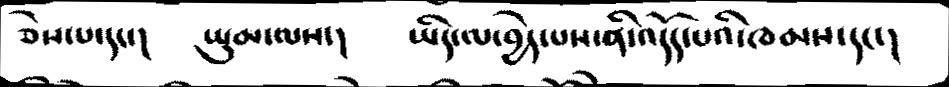ཅེས་པ་དང་།    ཡུམ་ལས་།    ཡིད་ལ་བྱེད་པས་ནི་འདོད་པའི་ཁམས་དང་།
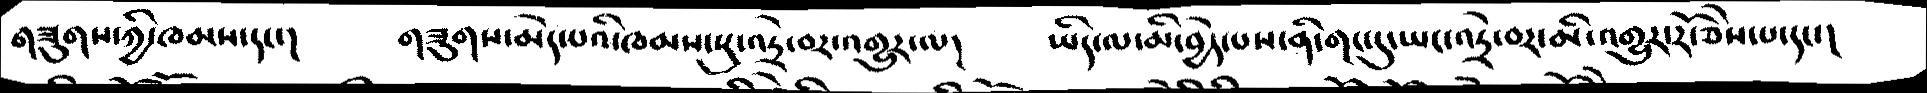གཟུགས་ཀྱི་ཁམས་དང་།   གཟུགས་མེད་པའི་ཁམས་སུ་འདྲེ་བར་འགྱུར་ལ།   ཡིད་ལ་མི་བྱེད་པས་ནི་གང་དུ་ཡང་འདྲེ་བར་མི་འགྱུར་རོ་ཅེས་པ་དང་།
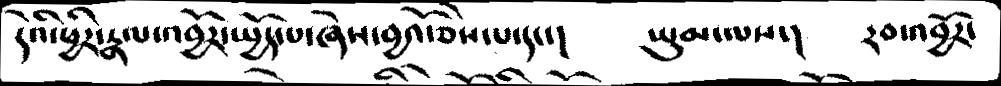དེའི་ཕྱིར་རྣལ་འབྱོར་སྤྱོད་པ་ཞེས་བྱའོ་ཅེས་པ་དང་།   ཡུམ་ལས་།   རབ་འབྱོར་
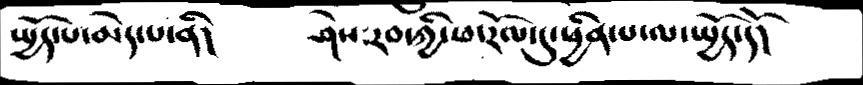སྤྱོད་པ་མེད་པ་ནི།    ཤེས་རབ་ཀྱི་ཕ་རོལ་དུ་ཕྱིན་པ་ལ་སྤྱོད་དོ།
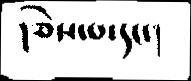།ཅེས་པ་དང་།
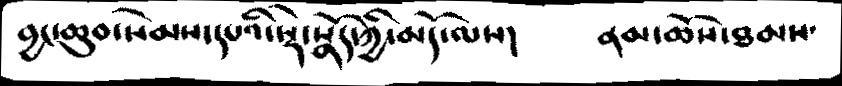བྱང་ཆུབ་སེམས་དཔའི་སྡེ་སྣོད་ཀྱི་མདོ་ལས།   ནམ་ཆོས་ཐམས་
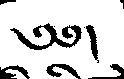༄༅།
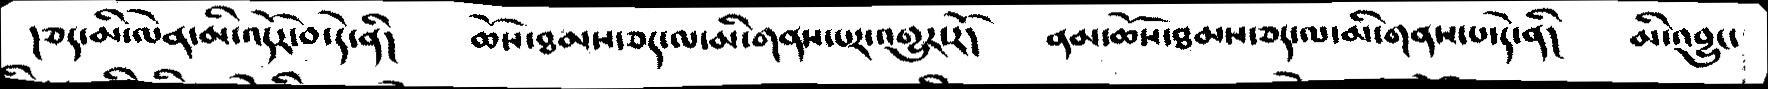།ཅད་མི་ལེན་མི་འདོར་བ་དེ་ནི།   ཆོས་ཐམས་ཅད་ལ་མི་གནས་པར་འགྱུར་རོ།    ནམ་ཆོས་ཐམས་ཅད་ལ་མི་གནས་པ་དེ་ནི།   མི་འབྱུང་
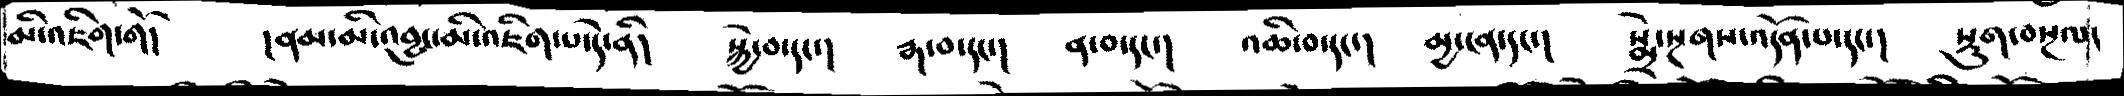མི་འཇིག་གོ།   །ནམ་མི་འབྱུང་མི་འཇིག་པ་དེ་ནི།    སྐྱེ་བ་དང་།   རྒ་བ་དང་།   ན་བ་དང་།   འཆི་བ་དང་།   མྱ་ངན་དང་།   སྨྲེ་སྔགས་འདོན་པ་དང་།  སྡུག་བསྔལ་
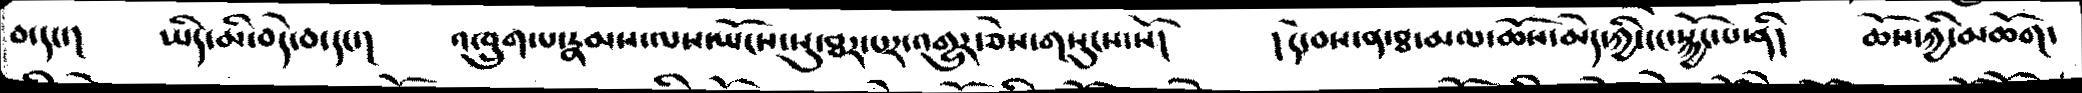བ་དང་།   ཡིད་མི་བདེ་བ་དང་།  འཁྲུག་པ་རྣམས་ལས་ཡོངས་སུ་ཐར་པར་འགྱུར་ཅེས་གསུངས་སོ།   །དེ་བས་ན་ཐ་མལ་ཆོས་མེད་ཀྱི་ངང་སྐྱོང་པ་ནི།   ཆོས་ཀྱི་མཆོག་
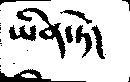ཡིན་ཏེ།
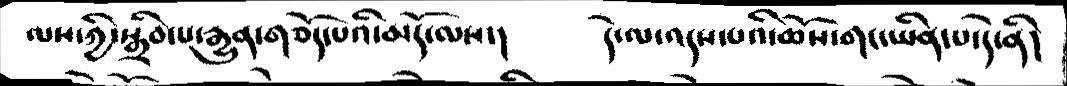ལས་ཀྱི་སྒྲིབ་པ་རྒྱུན་གཅོད་པའི་མདོ་ལས་།    དེ་ལ་འདས་པའི་ཆོས་གང་ཡིན་པ་དེ་ནི།
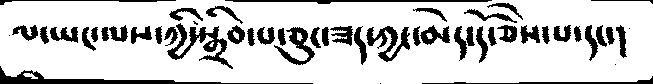ལ་ཡང་ལས་ཀྱི་སྒྲིབ་པ་ཅུང་ཟད་ཀྱང་མེད་དོ་ཅེས་པ་དང་།
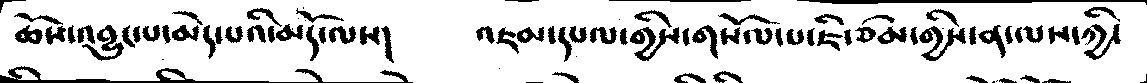ཆོས་འབྱུང་པ་མེད་པའི་མདོ་ལས།    འཇམ་དཔལ་གྱིས་གསོལ་པ་ཇི་ཙམ་གྱིས་ན་ལས་ཀྱི་
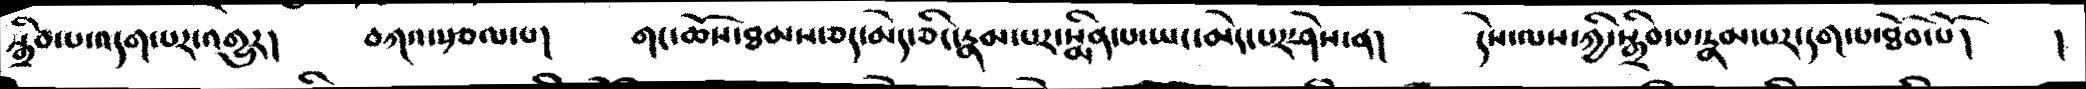སྒྲིབ་པ་འདག་པར་འགྱུར།   བཀལ་སྩལ་པ།   གང་ཆོས་ཐམས་ཅད་མེད་ཅིང་རྣམ་པར་སྨིན་པ་ཡང་མེད་པར་ཤེས་ན།    དེས་ལས་ཀྱི་སྒྲིབ་པ་རྣམ་པར་དག་པ་ཐོབ་པོ།    །
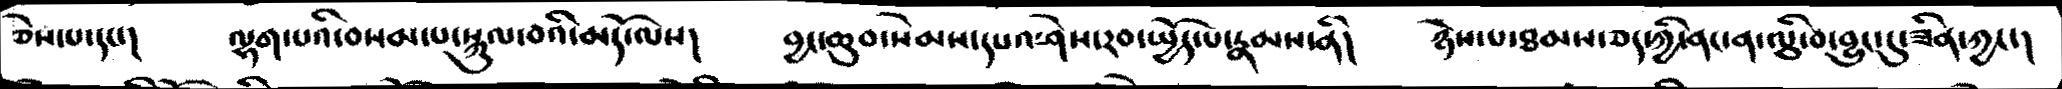ཅེས་པ་དང་།   ལྷག་པའི་བསམ་པ་སྐུལ་བའི་མདོ་ལས།   བྱང་ཆུབ་སེམས་དཔའ་ཤེས་རབ་སྤྱོད་པ་རྣམས་ནི།   ཉེས་པ་ཐམས་ཅད་ཀྱི་ནང་ན་ལྕི་བ་བྱུང་དུ་ཟིན་ཀྱང་།
